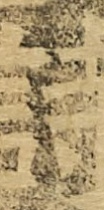詩
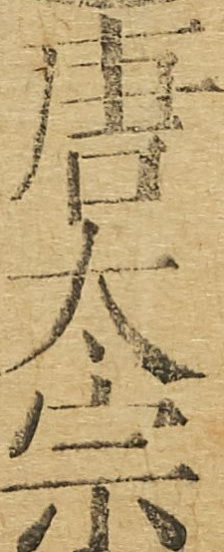唐太宗
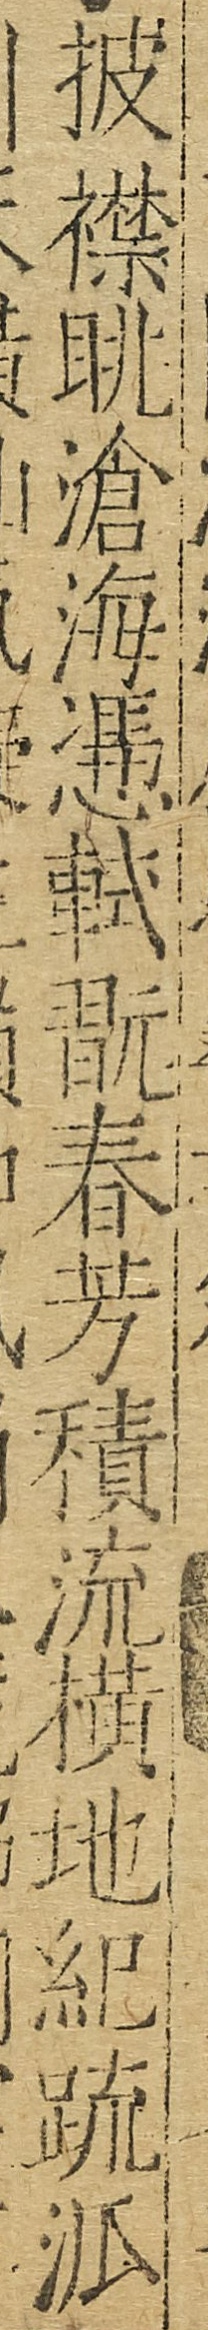披襟眺滄海憑軾翫春芳積流橫地紀疏派
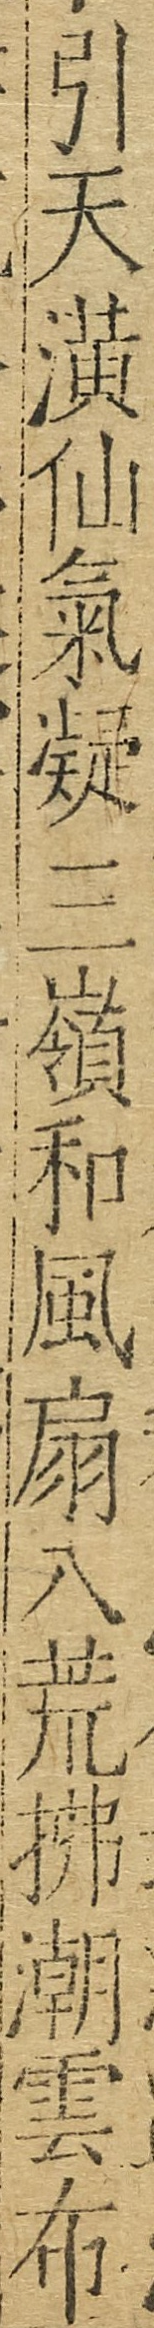引天潢仙氣凝三嶺和風扇八荒拂潮雲布
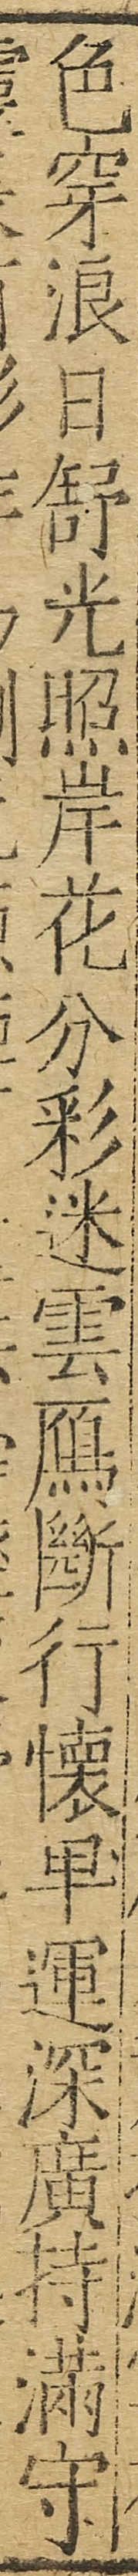色穿浪日舒光照岸花分彩迷雲鴈斷行懷卑運深廣持滿守
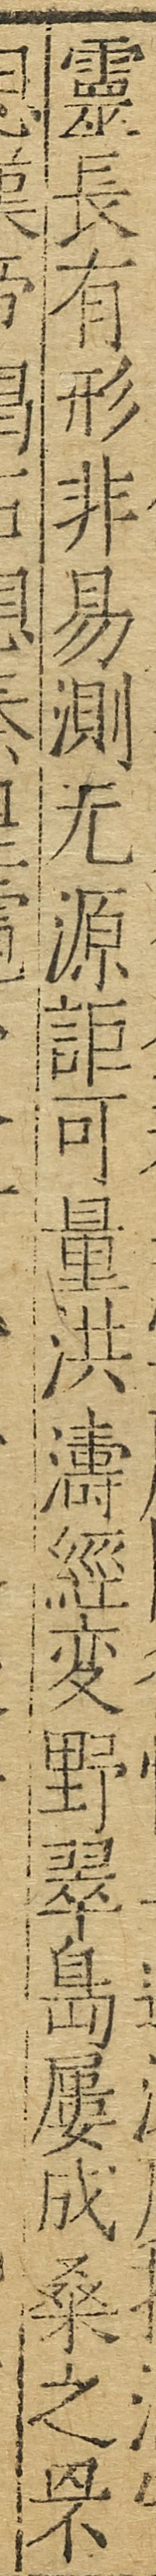靈長有形非易測無源詎可量洪濤經變野翠島屢成桑之罘
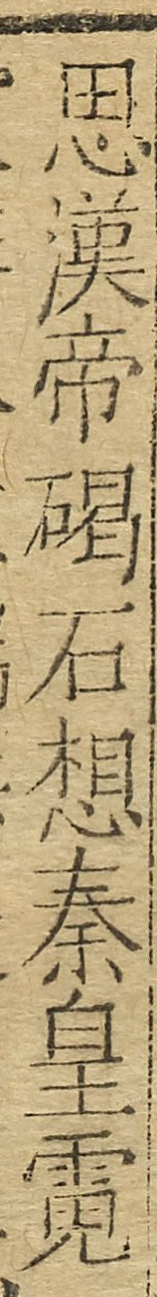思漢帝碣石想秦皇霓
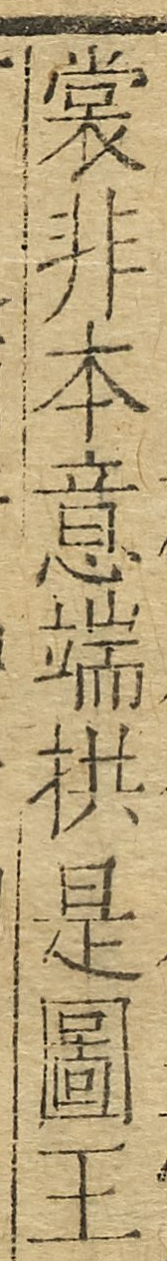裳非本意端拱是圖王
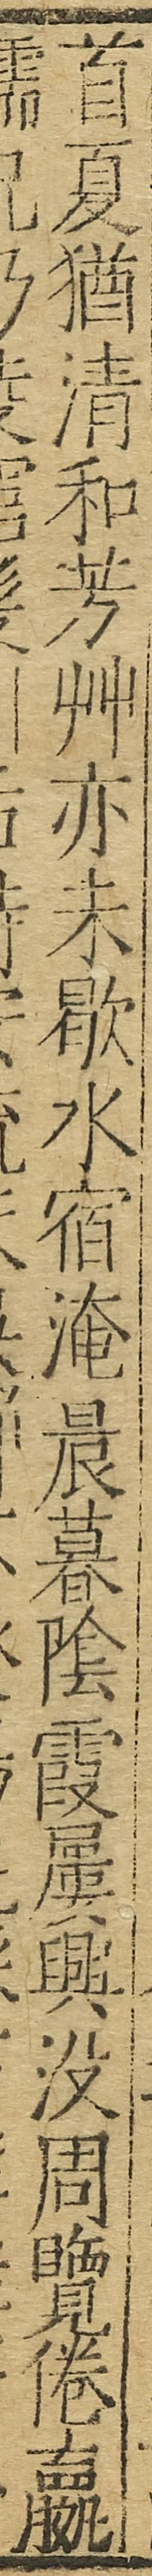首夏猶清和芳艸亦未歇水宿淹晨暮陰霞屢興沒周覽倦瀛
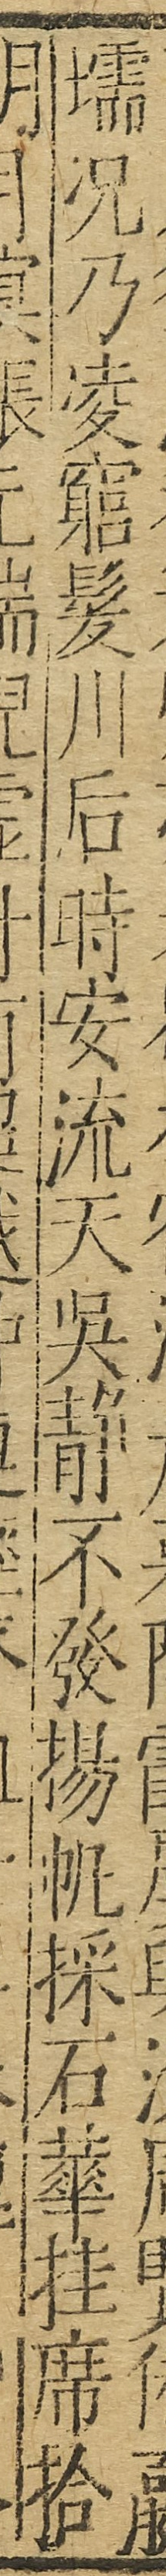壖況乃淩窮髮川后時安流天吳靜不發揚帆採石華掛席拾
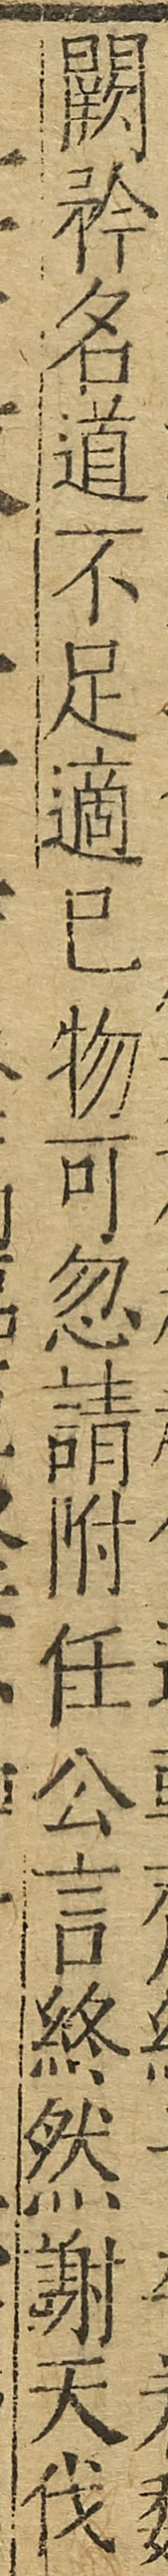闕矜名道不足適已物可忽請附任公言終然謝天伐
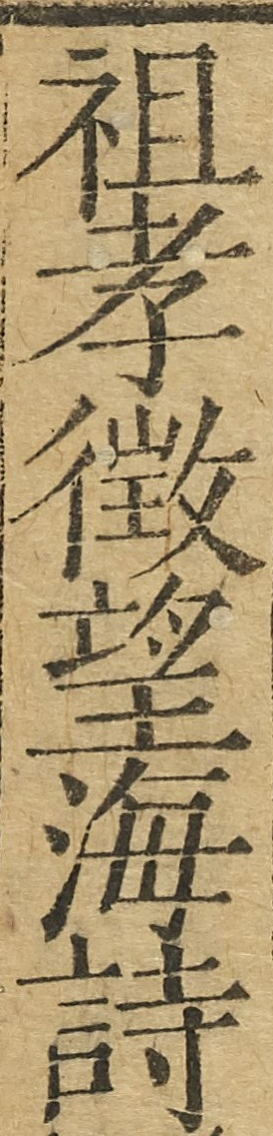祖孝徵望海詩
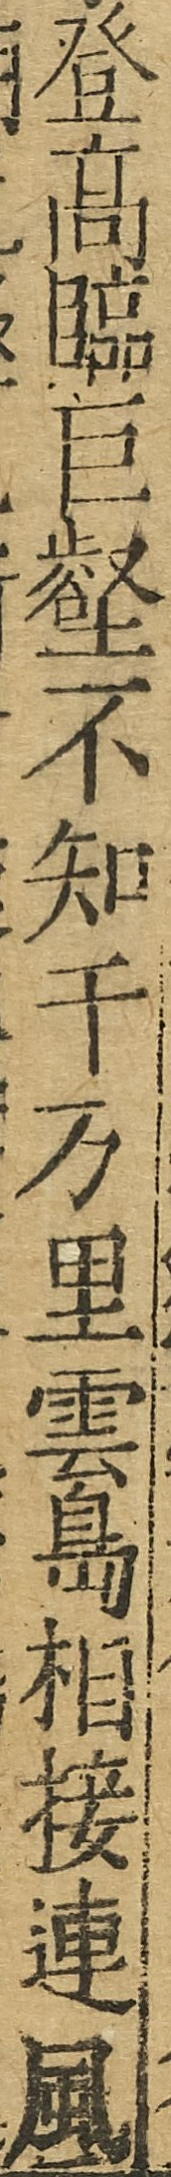登高臨巨壑不知千萬里雲島相接連風
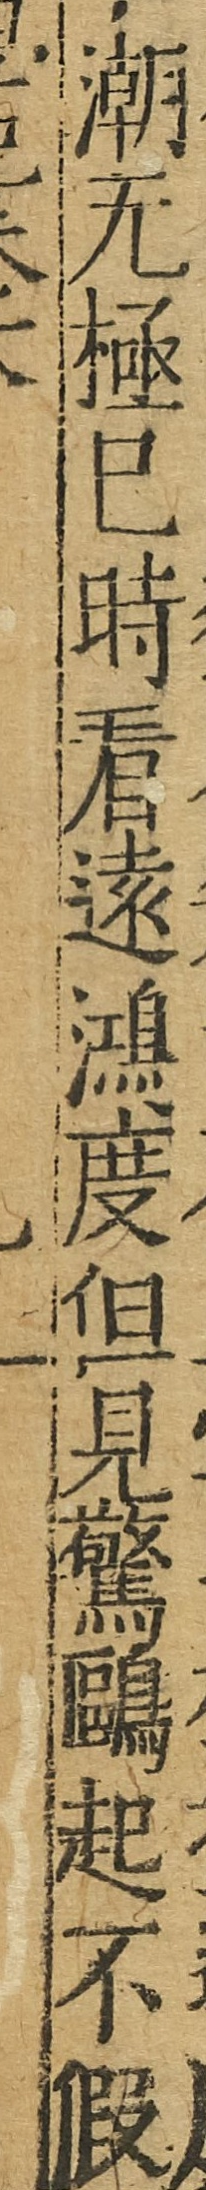潮無極已時看遠鴻度但見驚鷗起不假
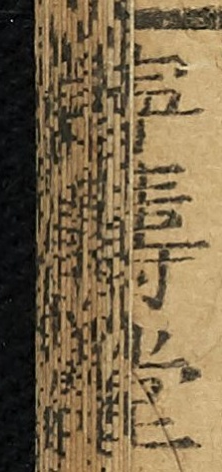寧壽堂
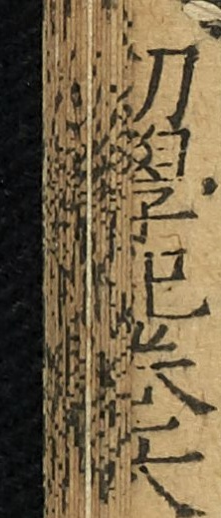初學記卷六
